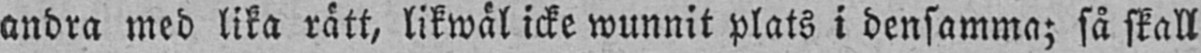andra med lika rätt, likwäl icke wunnit plats i densamma; så skall
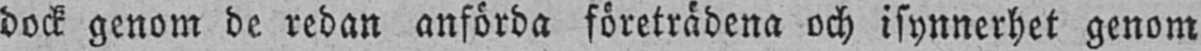dock genom de redan anförda företrädena och isynnerhet genom
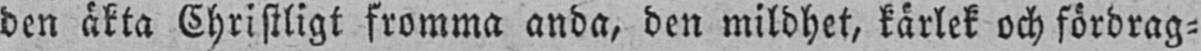den äkta Christligt fromma anda, den mildhet, kärlek och fördrag-
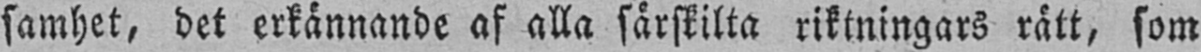samhet, det erkännande af alla särskilta riktningars rätt, som
